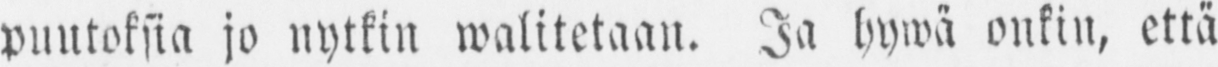puutoksia jo nytkin walitetaan. Ja hywä onkin, että
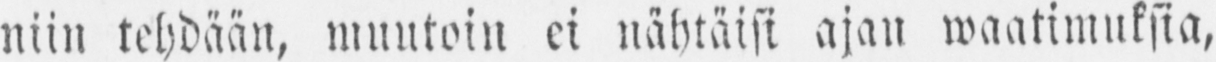niin tehdään, muutoin ei nähtäisi ajan waatimuksia,
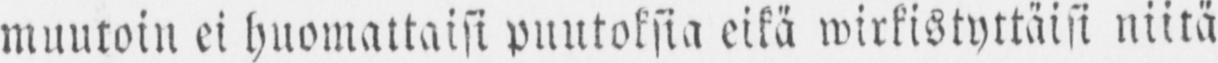muutoin ei huomattaisi puutoksia eikä wirkistyttäisi niitä
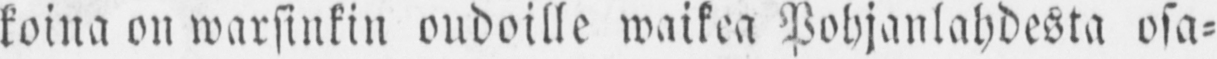koina on warsinkin oudoille waikea Pohjanlahdesta osa-
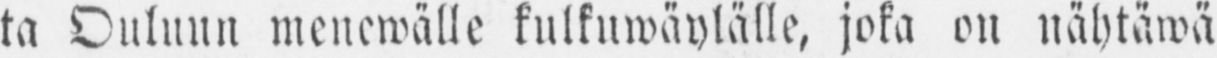ta Ouluun menewälle kulkuwäylälle, joka on nähtäwä
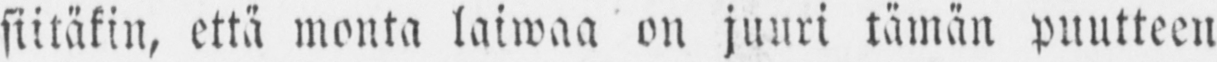siitäkin, että monta laiwaa on juuri tämän puutteen
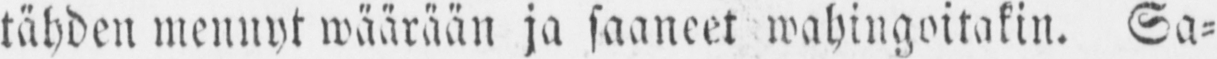tähden mennyt wäärään ja saaneet wahingoitakin. Sa-
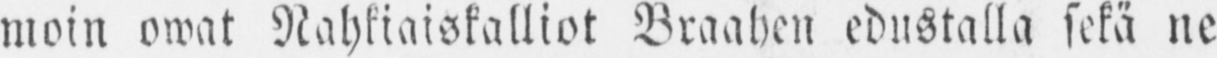moin owat Nahkiaiskalliot Braahen edustalla sekä ne
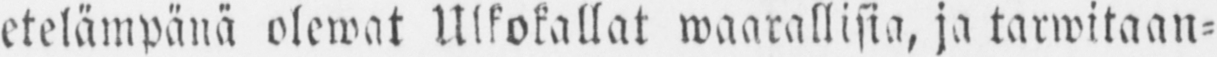etelämpänä olewat Ulkokallat waarallisia, ja tarwitaan-
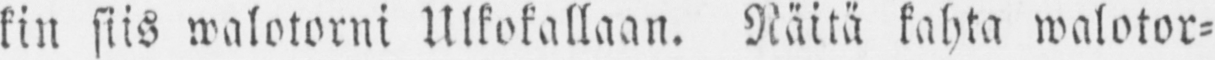kin siis walotorni Ulkokallaan. Näitä kahta walotor-
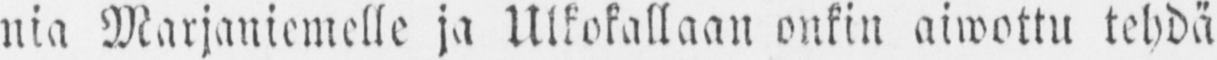nia Marjaniemelle ja Ulkokallaan onkin aiwottu tehdä
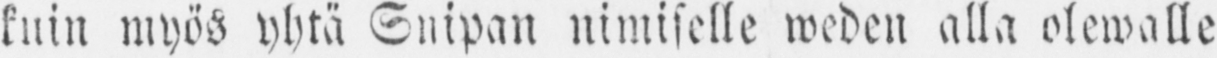kuin myös yhtä Snipan nimiselle weden alla olewalle
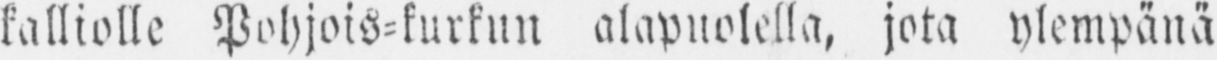kalliolle Pohjois-kurkun alapuolella, jota ylempänä
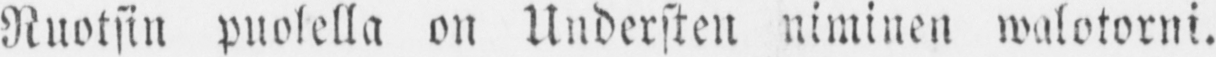Ruotsin puolella on Understen niminen walotorni.
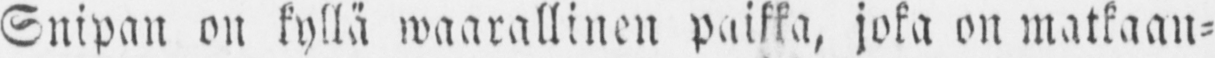Snipan on kyllä waarallinen paikka, joka on matkaan-
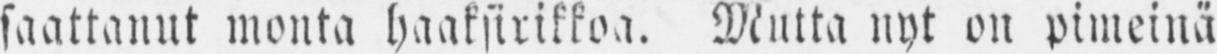saattanut monta haaksirikkoa. Mutta nyt on pimeinä
